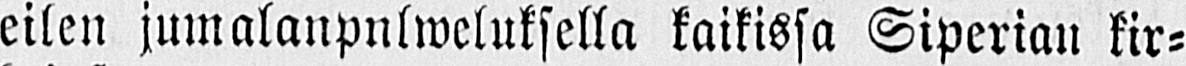eilen jumalanpnlweluksella kaikissa Siperian kir-
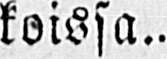koissa.
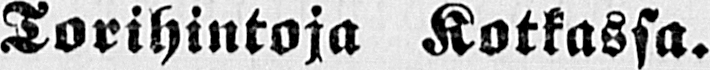Torihintoja Kotkassa.
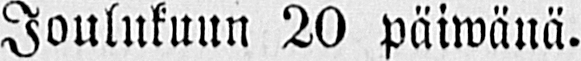Joulukuun 20 päiwänä.
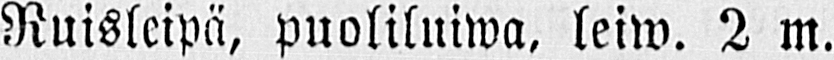Ruisleipä, puoliluiwa, leiw. 2 m.
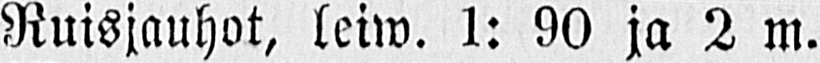Ruisjauhot, leiw. 1: 90 ja 2 m.
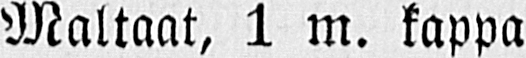Maltaat, 1 m. kappa
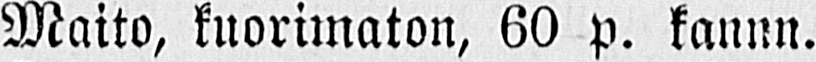Maito, kuorimaton, 60 p. kannu.
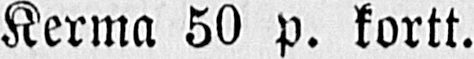Kerma 50 p. kortt.
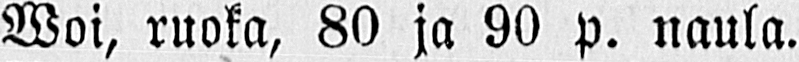Woi, ruoka, 80 ja 90 p. naula.
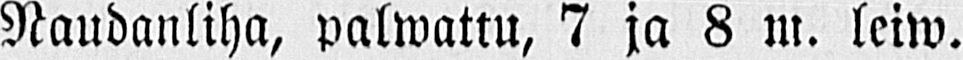Naudanliha, palwattu, 7 ja 8 m. leiw.
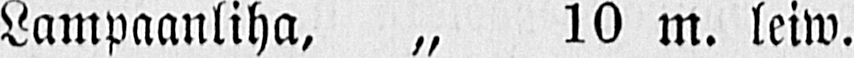Lampaanliha, „ 10 m. leiw.
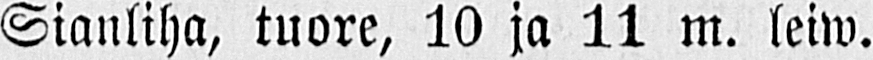Sianliha, tuore, 10 ja 11 m. leiw.
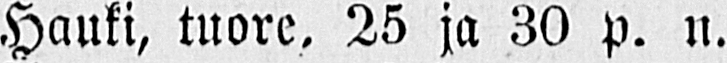Hauki, tuore. 25 ja 30 p. n.
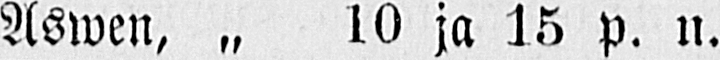Aswen, „ 10 ja 15 p. n.
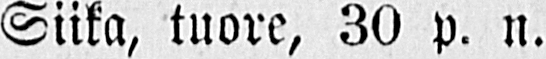Siika, tuore, 30 p. n.
